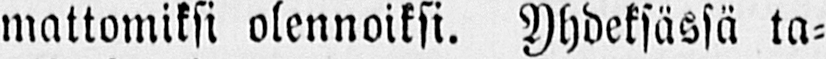mattomiksi olennoiksi. Yhdeksässä ta-
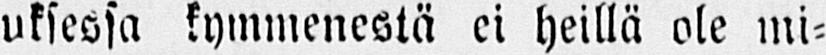uksessa kymmenestä ei heillä ole mi-
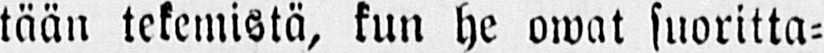tään tekemistä, kun he owat suoritta-
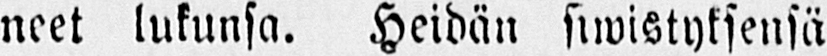neet lukunsa. Heidän siwistyksensä
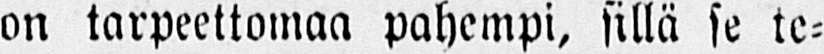on tarpeettomaa pahempi, sillä se te-
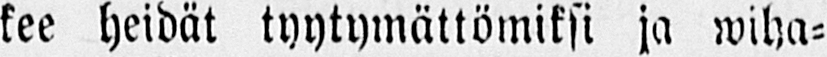kee heidät tyytymättömiksi ja wiha-
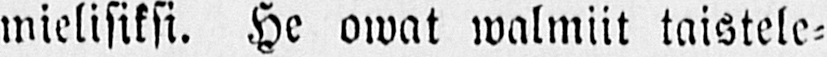mielisiksi. He owat walmiit taistele-
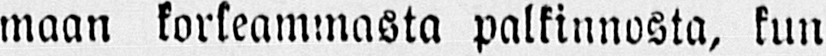maan korkeammasta palkinnosta, kun
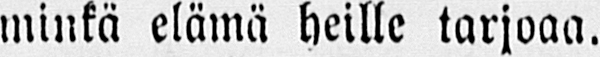minkä elämä heille tarjoaa.
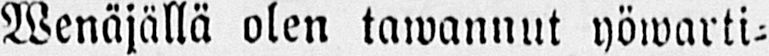Wenäjällä olen tawannut yöwarti-
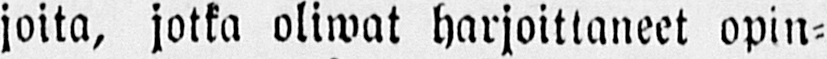joita, jotka oliwat harjoittaneet opin-
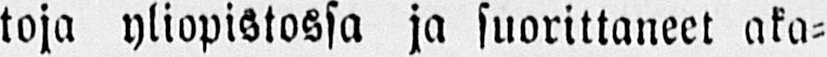toja yliopistossa ja suorittaneet aka-
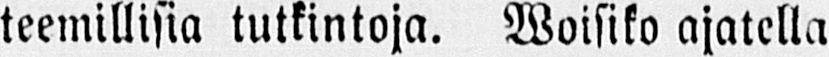teemillisia tutkintoja. Woisiko ajatella
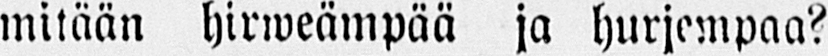mitään hirweämpää ja hurjempaa?
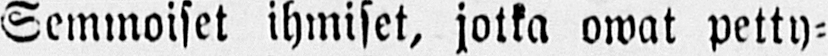Semmoiset ihmiset, jotka owat petty-
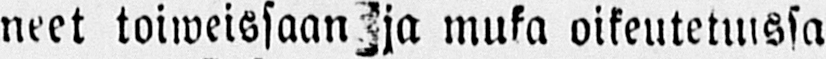neet toiweissaan ja muka oikeutetuissa
